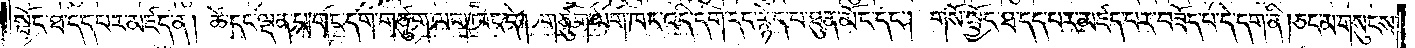སྦྱོང་ཐ་དད་པར་མཛད་ན། ཚེ་དང་ལྡན་པ་གང་དག་གཙུག་ལག་ཁང་དེ། གཙུག་ལག་ཁང་འདི་དག་དང་རྙེད་པ་ཐུན་མོང་དང༌། གསོ་སྦྱོང་ཐ་དད་པར་མཛད་པར་བཟོད་པ་དེ་དག་ནི་།ཅང་མ་གསུངས་
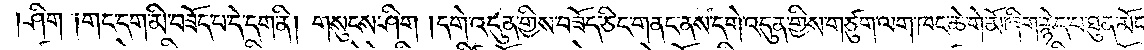ཤིག །གང་དག་མི་བཟོད་པ་དེ་དག་ནི། གསུངས་ཤིག །དགེ་འདུན་གྱིས་བཟོད་ཅིང་གནང་ནས་དགེ་འདུན་གྱིས་གཙུག་ལག་ཁང་ཆེ་གེ་མོ་ཞིག་རྙེད་པ་ཐུན་མོང་
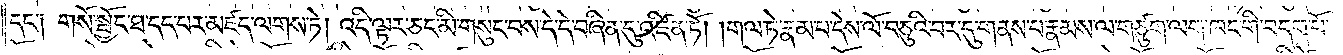དང༌། གསོ་སྦྱོང་ཐ་དད་པར་མཛད་ལགས་ཏེ། འདི་ལྟར་ཅང་མི་གསུང་བས་དེ་དེ་བཞིན་དུ་འཛིན་ཏོ། །གལ་ཏེ་རྣམ་པ་དེས་ལོ་བཅུའི་བར་དུ་གནས་པ་རྣམས་ལ་གཙུག་ལག་ཁང་གི་བདག་པོ་
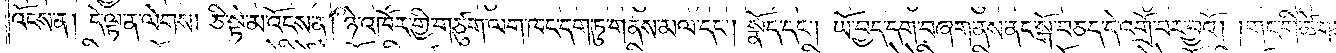འོངས་ན། དེ་ལྟ་ན་ལེགས། ཅི་སྟེ་མ་འོངས་ན། ཉེ་འཁོར་གྱི་གཙུག་ལག་ཁང་དག་ཏུ་གནས་མལ་དང༌། སྣོད་དང༌། ཡོ་བྱད་དག་བཞག་ནས་ནང་སྒོ་བཅད་དེ་འགྲོ་བར་བྱའོ། །གང་གི་ཚེ་གཙུག་
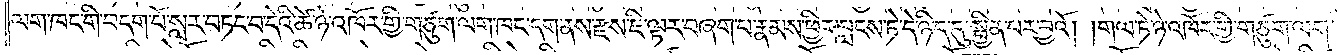ལག་ཁང་གི་བདག་པོ་སླར་བཏང་བ་དེའི་ཚེ་ཉེ་འཁོར་གྱི་གཙུག་ལག་ཁང་དག་ནས་རྫས་ཇི་ལྟར་བཞག་པ་རྣམས་ཕྱིར་བླངས་ཏེ་དེ་ཉིད་དུ་སྦྱིན་པར་བྱའོ། །གལ་ཏེ་ཉེ་འཁོར་གྱི་གཙུག་ལག་
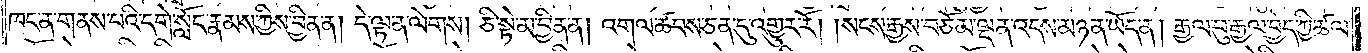ཁང་ན་གནས་པའི་དགེ་སློང་རྣམས་ཀྱིས་བྱིན་ན། དེ་ལྟ་ན་ལེགས། ཅི་སྟེ་མ་བྱིན་ན། འགལ་ཚབས་ཅན་དུ་འགྱུར་རོ། །སངས་རྒྱས་བཅོམ་ལྡན་འདས་མཉན་ཡོད་ན། རྒྱལ་བུ་རྒྱལ་བྱེད་ཀྱི་ཚལ་
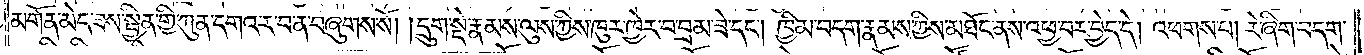མགོན་མེད་ཟས་སྦྱིན་གྱི་ཀུན་དགའ་ར་བ་ན་བཞུགས་སོ། །དྲུག་སྡེ་རྣམས་ལུས་ཀྱིས་ཁུར་ཁྱེར་བ་བྲམ་ཟེ་དང༌། ཁྱིམ་བདག་རྣམས་ཀྱིས་མཐོང་ནས་འཕྱ་བར་བྱེད་དེ། འཕགས་པ། རེ་ཞིག་བདག་
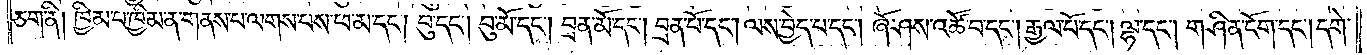ཅག་ནི། ཁྱིམ་པ་ཁྱིམ་ན་གནས་པ་ལགས་པས་ཕ་མ་དང༌། བུ་དང༌། བུ་མོ་དང༌། བྲན་མོ་དང༌། བྲན་པོ་དང༌། ལས་བྱེད་པ་དང༌། ཞོ་ཤས་འཚོ་བ་དང༌། རྒྱལ་པོ་དང༌། ལྷ་དང༌། གཤིན་ངོག་དང༌། དགེ་
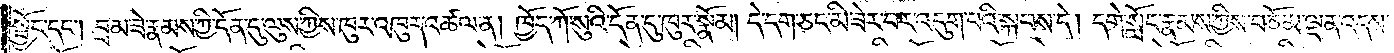སྦྱོང་དང༌། བྲམ་ཟེ་རྣམས་ཀྱི་དོན་དུ་ལུས་ཀྱིས་ཁུར་འཁུར་འཚལ་ན། ཁྱོད་ཀོ་སུའི་དོན་དུ་ཁུར་སྣོམ། དེ་དག་ཅང་མི་ཟེར་བར་འདུག་པའི་སྐབས་དེ། དགེ་སློང་རྣམས་ཀྱིས་བཅོམ་ལྡན་འདས་
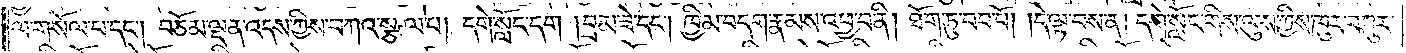ལ་གསོལ་པ་དང༌། བཅོམ་ལྡན་འདས་ཀྱིས་བཀའ་སྩལ་པ། དགེ་སློང་དག །བྲམ་ཟེ་དང༌། ཁྱིམ་བདག་རྣམས་འཕྱ་བ་ནི་།ཐོག་ཏུ་བབ་པོ། །དེ་ལྟ་བས་ན། དགེ་སློང་གིས་ལུས་ཀྱིས་ཁུར་བཀུར་
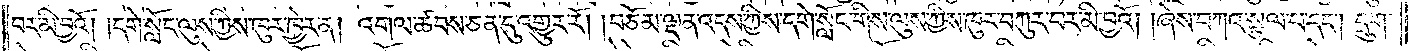བར་མི་བྱའོ། །དགེ་སློང་ལུས་ཀྱིས་ཁུར་ཁྱེར་ན། འགལ་ཚབས་ཅན་དུ་འགྱུར་རོ། །བཅོམ་ལྡན་འདས་ཀྱིས་དགེ་སློང་གིས་ལུས་ཀྱིས་ཁུར་བཀུར་བར་མི་བྱའོ། །ཞེས་བཀའ་སྩལ་པ་དང༌། དྲུག་
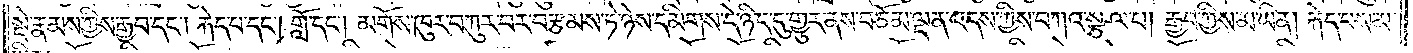སྡེ་རྣམས་ཀྱིས་རྒྱབ་དང༌། རྐེད་པ་དང༌། གློ་དང༌། མགོས་ཁུར་བཀུར་བར་བརྩམས་ཏེ་ཉེས་དམིགས་དེ་ཉིད་དུ་གྱུར་ནས་བཅོམ་ལྡན་འདས་ཀྱིས་བཀའ་སྩལ་པ། རྒྱབ་ཀྱིས་མ་ཡིན། རྐེད་པས་མ་
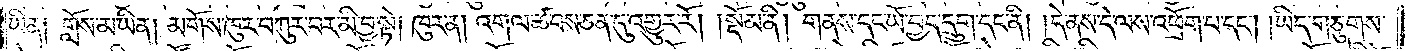ཡིན། གློས་མ་ཡིན། མགོས་ཁུར་བཀུར་བར་མི་བྱ་སྟེ། ཁུར་ན། འགལ་ཚབས་ཅན་དུ་འགྱུར་རོ།    །སྡོམ་ནི། གནས་དང་ཡོ་བྱད་དྲུག་དང་ནི། །དེ་ནས་དེ་ལས་འཕྲོག་པ་དང༌། །ཡིད་གཅུགས་
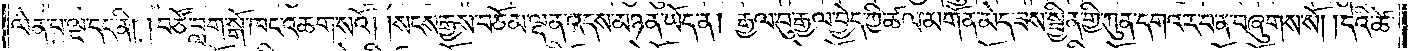ལེན་པ་ལྔ་དང་ནི། །བཙོ་བླག་སྒོ་ཁང་འཆག་སའོ། །སངས་རྒྱས་བཅོམ་ལྡན་འདས་མཉན་ཡོད་ན། རྒྱལ་བུ་རྒྱལ་བྱེད་ཀྱི་ཚལ་མགོན་མེད་ཟས་སྦྱིན་གྱི་ཀུན་དགའ་ར་བ་ན་བཞུགས་སོ། །དེའི་ཚེ་
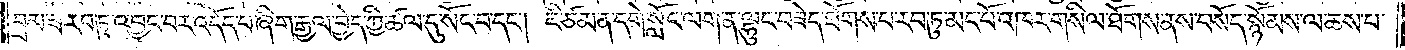བྲམ་ཟེ་རབ་ཏུ་འབྱུང་བར་འདོད་པ་ཞིག་རྒྱལ་བྱེད་ཀྱི་ཚལ་དུ་སོང་བ་དང༌། ཇི་ཙམ་ན་དགེ་སློང་ལག་ན་ལྷུང་བཟེད་ཐོགས་པ་རབ་ཏུ་མང་པོ་འཁར་གསིལ་ཐོགས་ནས་བསོད་སྙོམས་ལ་ཆས་པ་
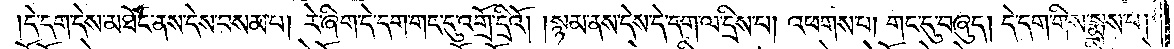དེ་དག་དེས་མཐོང་ནས་དེས་བསམ་པ། རེ་ཞིག་དེ་དག་གང་དུ་འགྲོ་དྲིའོ་།སྙམ་ནས་དེས་དེ་དག་ལ་དྲིས་པ། འཕགས་པ། གང་དུ་བཞུད། དེ་དག་གིས་སྨྲས་པ།
